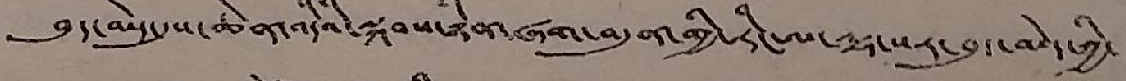བུད་མེད་དུས་ཆེན་འདིའི་སྐབས་ཉིན་ཞག་བདུན་གྱི་རིང་ལ་ལྷ་སར་བུད་མེད་ཀྱི་
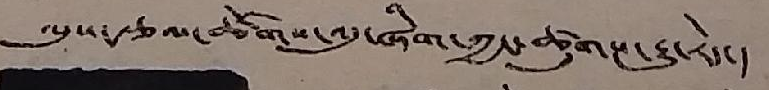ལུས་རྩལ་ཚོགས་འདུ་ཞིག་ཀྱང་ཚུགས་རྒྱུ་རེད་།
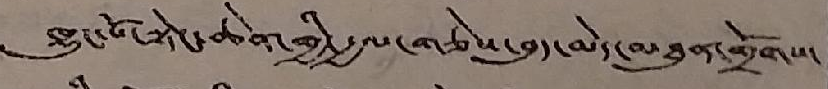ཁྱུང་པོ་སྟེང་ཆེན་གྱི་རྒྱལ་གཅེས་བུད་མེད་མཐུན་གྲོགས་
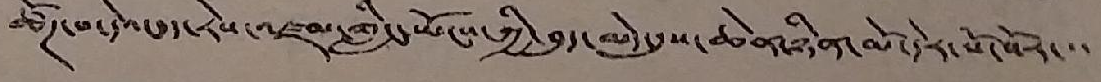ཚོཊ་པ་དེའང་ད་རེས་འཛམ་གླིང་ཡོངས་ཀྱི་བུད་མེད་དུས་ཆེན་ཉིན་མོ་དེར་སོ་སོར་་་
